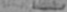2
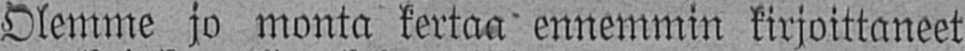Olemme jo monta kertaa ennemmin kirjoittaneet
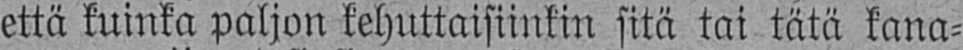että kuinka paljon kehuttaisiinkin sitä tai tätä kana-
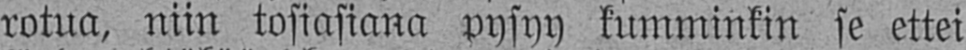rotua, niin tosiasiana pysyy kumminkin se ettei
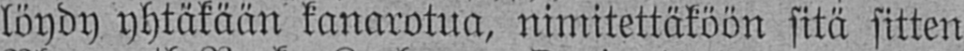löydy yhtäkään kanarotua, nimitettäköön sitä sitten
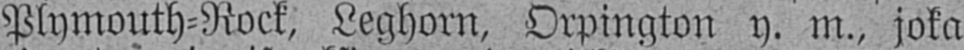Plymouth-Rock, Leghorn, Orpington y. m., joka
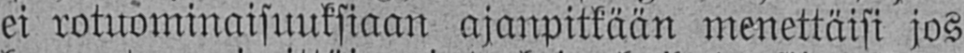ei rotuominaisuuksiaan ajanpitkään menettäisi jos
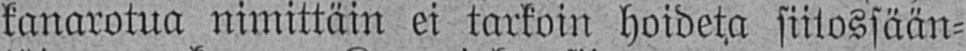kanarotua nimittäin ei tarkoin hoideta siitossään-
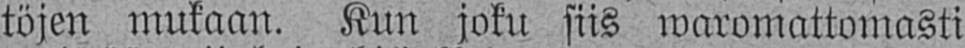töjen mukaan. Kun joku siis waromattomasti
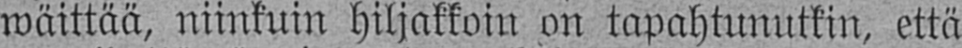wäittää, niinkuin hiljakkoin on tapahtunutkin, että
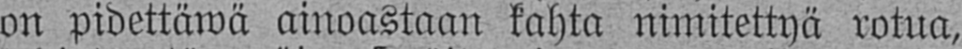on pidettäwä ainoastaan kahta nimitettyä rotua,
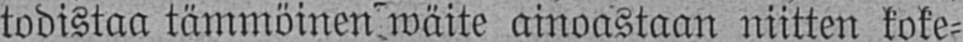todistaa tämmöinen wäite ainoastaan niitten koke-
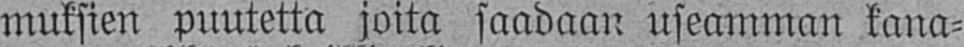muksien puutetta joita saadaan useamman kana-
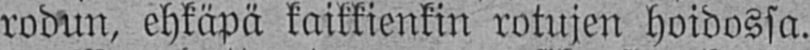rodun, ehkäpä kaikkienkin rotujen hoidossa.
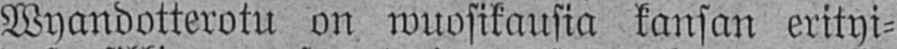Wyandotterotu on wuosikausia kansan erityi-
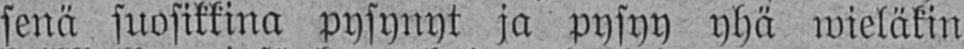senä suosikkina pysynyt ja pysyy yhä wieläkin
